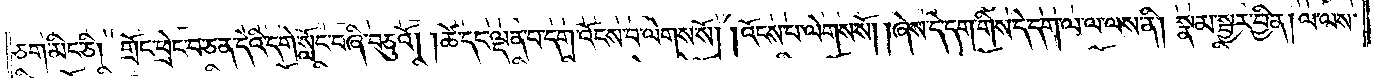ཅག་མིང་ཅི། གྲོང་ཕྲེང་བ་ཅན་དེའི་དགེ་སློང་བཞི་བཅུའོ། །ཚེ་དང་ལྡན་པ་དག་འོངས་པ་ལེགས་སོ། །འོངས་པ་ལེགས་སོ། །ཞེས་དེ་དག་གིས་དེ་དག་ལ་ལ་ལས་ནི། སྣམ་སྦྱར་བྱིན། །ལ་ལས་
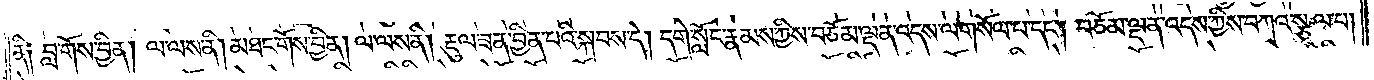ནི༑ བླ་གོས་བྱིན། ལ་ལས་ནི། མཐང་གོས་བྱིན། ལ་ལས་ནི། རྡུལ་ཟན་བྱིན་པའི་སྐབས་དེ། དགེ་སློང་རྣམས་ཀྱིས་བཅོམ་ལྡན་འདས་ལ་གསོལ་པ་དང༌། བཅོམ་ལྡན་འདས་ཀྱིས་བཀའ་སྩལ་པ།
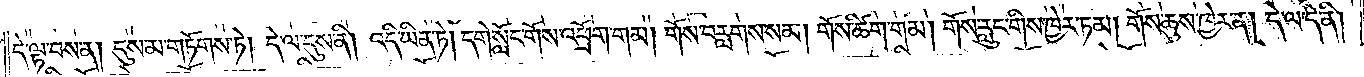དེ་ལྟ་བས་ན། དུས་མ་གཏོགས་ཏེ། དེ་ལ་དུས་ནི། འདི་ཡིན་ཏེ། དགེ་སློང་གོས་འཕྲོག་གམ། གོས་བརླགས་སམ། གོས་ཚིག་གམ། གོས་རླུང་གིས་ཁྱེར་ཏམ། གོས་ཆུས་ཁྱེར་ན། དེ་ལ་དེ་ནི།
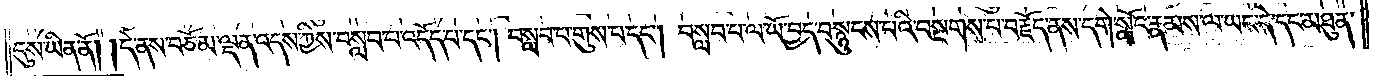དུས་ཡིན་ནོ། །དེ་ནས་བཅོམ་ལྡན་འདས་ཀྱིས་བསླབ་པ་འདོད་པ་དང༌། བསླབ་པ་གུས་པ་དང༌། བསླབ་པ་ལ་ཡོ་བྱད་བསྙུངས་པའི་བསྔགས་པ་བརྗོད་ནས་དགེ་སློང་རྣམས་ལ་ཡང་དེ་དང་མཐུན་
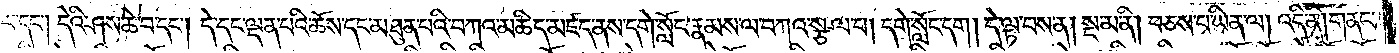པ་དང༌། དེའི་ཤས་ཆེ་བ་དང༌། དེ་དང་ལྡན་པའི་ཆོས་དང་མཐུན་པའི་བཀའ་མཆིད་མཛད་ནས་དགེ་སློང་རྣམས་ལ་བཀའ་སྩལ་པ། དགེ་སློང་དག །དེ་ལྟ་བས་ན། སྔ་མ་ནི། བཅས་པ་ཡིན་ལ། འདི་ནི། གནང་
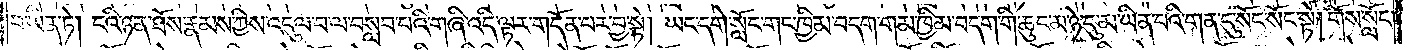བ་ཡིན་ཏེ། ངའི་ཉན་ཐོས་རྣམས་ཀྱིས་འདུལ་བ་ལ་བསླབ་པའི་གཞི་འདི་ལྟར་གདོན་པར་བྱ་སྟེ། ཡང་དགེ་སློང་གང་ཁྱིམ་བདག་གམ་ཁྱིམ་བདག་གི་ཆུང་མ་ཉེ་དུ་མ་ཡིན་པའི་གན་དུ་སོང་སོང་སྟེ། གོས་སློང་
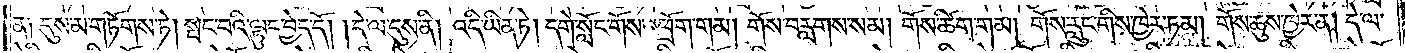ན༑ དུས་མ་གཏོགས་ཏེ། སྤང་པའི་ལྟུང་བྱེད་དོ། །དེ་ལ་དུས་ནི། འདི་ཡིན་ཏེ། དགེ་སློང་གོས་འཕྲོག་གམ། གོས་བརླགས་སམ། གོས་ཚིག་གམ། གོས་རླུང་གིས་ཁྱེར་ཏམ། གོས་ཆུས་ཁྱེར་ན། དེ་ལ་
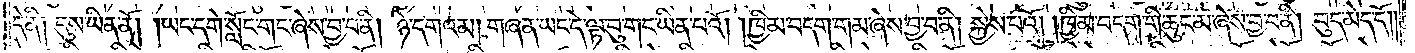དེ་ནི། དུས་ཡིན་ནོ། །ཡང་དགེ་སློང་གང་ཞེས་བྱ་བ་ནི། ཉེ་དགའམ། གཞན་ཡང་དེ་ལྟ་བུ་གང་ཡིན་པའོ། །ཁྱིམ་བདག་གམ་ཞེས་བྱ་བ་ནི། སྐྱེས་པའོ། །ཁྱིམ་བདག་གི་ཆུང་མ་ཞེས་བྱ་བ་ནི། བུད་མེད་དོ། །
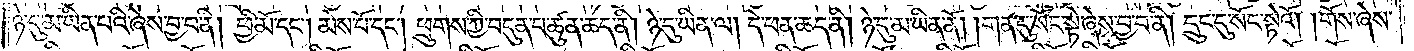ཉེ་དུ་མ་ཡིན་པའི་ཞེས་བྱ་བ་ནི། ཕྱི་མོ་དང༌། མེས་པོ་དང༌། ཕྲུགས་ཀྱི་བདུན་བ་ཚུན་ཆད་ནི། ཉེ་དུ་ཡིན་ལ། དེ་ཕན་ཆད་ནི། ཉེ་དུ་མ་ཡིན་ནོ། །གན་དུ་སོང་སྟེ་ཞེས་བྱ་བ་ནི། དྲུང་དུ་སོང་སྟེའོ། །གོས་ཞེས་
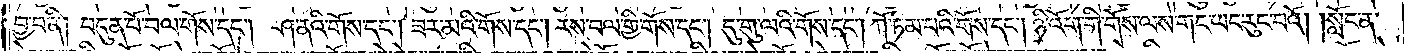བྱ་བ་ནི། བདུན་པོ་བལ་གོས་དང༌། ཤ་ནའི་གོས་དང༌། ཟར་མའི་གོས་དང༌། རས་བལ་གྱི་གོས་དང༌། དུ་གུ་ལའི་གོས་དང༌། ཀོ་ཏམ་པའི་གོས་དང༌། ཉི་འོག་གི་གོས་ལས་གང་ཡང་རུང་བའོ། །སློང་ན་
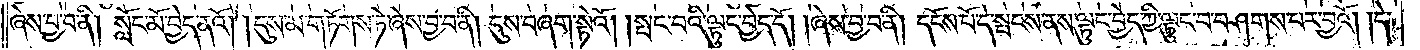ཞེས་བྱ་བ་ནི། སློང་མོ་བྱེད་ནའོ། །དུས་མ་གཏོགས་ཏེ་ཞེས་བྱ་བ་ནི། དུས་བཞག་སྟེའོ། །སྤང་བའི་ལྟུང་བྱེད་དོ། །ཞེས་བྱ་བ་ནི། དངོས་པོ་དེ་སྤངས་ནས་ལྟུང་བྱེད་ཀྱི་ལྟུང་བ་བཤགས་པར་བྱའོ། །དེ་
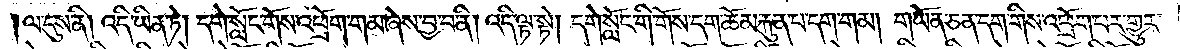།ལ་དུས་ནི། འདི་ཡིན་ཏེ། དགེ་སློང་གོས་འཕྲོག་གམ་ཞེས་བྱ་བ་ནི། འདི་ལྟ་སྟེ། དགེ་སློང་གི་གོས་དག་ཆོམ་རྐུན་པ་དག་གམ། གཡོན་ཅན་དག་གིས་འཕྲོག་པར་གྱུར་
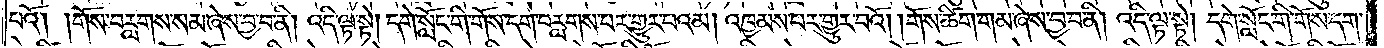པའོ། །གོས་བརླགས་སམ་ཞེས་བྱ་བ་ནི། འདི་ལྟ་སྟེ། དགེ་སློང་གི་གོས་དག་བརླགས་པར་གྱུར་པའམ། འཁྱམས་པར་གྱུར་པའོ། །གོས་ཚིག་གམ་ཞེས་བྱ་བ་ནི། འདི་ལྟ་སྟེ། དགེ་སློང་གི་གོས་དག་
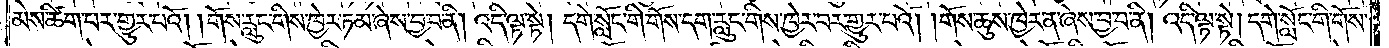མེས་ཚིག་པར་གྱུར་པའོ། །གོས་རླུང་གིས་ཁྱེར་ཏམ་ཞེས་བྱ་བ་ནི། འདི་ལྟ་སྟེ། དགེ་སློང་གི་གོས་དག་རླུང་གིས་ཁྱེར་བར་གྱུར་པའོ། །གོས་ཆུས་ཁྱེར་ན་ཞེས་བྱ་བ་ནི། འདི་ལྟ་སྟེ། དགེ་སློང་གི་གོས་
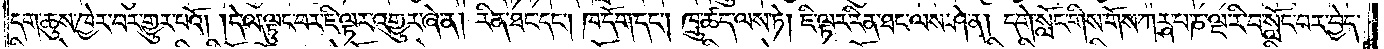དག་ཆུས་ཁྱེར་བར་གྱུར་པའོ། །དེ་ལ་ལྟུང་བར་ཇི་ལྟར་འགྱུར་ཞེ་ན། རིན་ཐང་དང༌། ཁ་དོག་དང༌། ཁྲུ་ཚད་ལས་ཏེ། ཇི་ལྟར་རིན་ཐང་ལས་ཤེ་ན། དགེ་སློང་གིས་གོས་ཀརྴ་པཎ་ལྔ་རི་བ་སློང་བར་བྱེད་
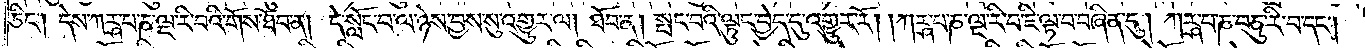ཅིང༌། དེས་ཀརྴ་པཎ་ལྔ་རི་བའི་གོས་ཐོབ་ན། དེ་སློང་བ་ལ་ཉེས་བྱས་སུ་འགྱུར་ལ། ཐོབ་ན། སྤང་བའི་ལྟུང་བྱེད་དུ་འགྱུར་རོ། །ཀརྴ་པཎ་ལྔ་རི་བ་ཇི་ལྟ་བ་བཞིན་དུ། ཀརྴ་པཎ་བཅུ་རི་བ་དང༌།
